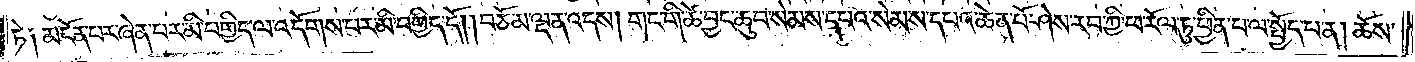ཏེ༑ མངོན་པར་ཞེན་པར་མི་བགྱིད་ལ་འདོགས་པར་མི་བགྱིད་དོ། །བཅོམ་ལྡན་འདས། གང་གི་ཚེ་བྱང་ཆུབ་སེམས་དཔའ་སེམས་དཔའ་ཆེན་པོ་ཤེས་རབ་ཀྱི་ཕ་རོལ་ཏུ་ཕྱིན་པ་ལ་སྤྱོད་པ་ན། ཆོས་
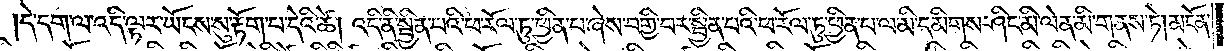དེ་དག་ལ་འདི་ལྟར་ཡོངས་སུ་རྟོག་པ་དེའི་ཚེ། འདི་ནི་སྦྱིན་པའི་ཕ་རོལ་ཏུ་ཕྱིན་པ་ཞེས་བགྱི་བར་སྦྱིན་པའི་ཕ་རོལ་ཏུ་ཕྱིན་པ་ལ་མི་དམིགས་ཤིང་མི་ལེན་མི་གནས་ཏེ། མངོན་
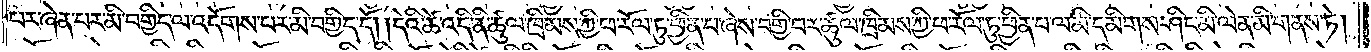པར་ཞེན་པར་མི་བགྱིད་ལ་འདོགས་པར་མི་བགྱིད་དོ། །དེའི་ཚེ་འདི་ནི་ཚུལ་ཁྲིམས་ཀྱི་ཕ་རོལ་ཏུ་ཕྱིན་པ་ཞེས་བགྱི་བར་ཚུལ་ཁྲིམས་ཀྱི་ཕ་རོལ་ཏུ་ཕྱིན་པ་ལ་མི་དམིགས་ཤིང་མི་ལེན་མི་གནས་ཏེ།
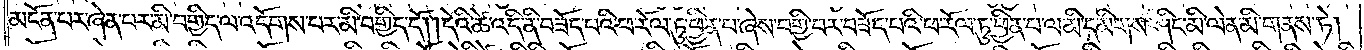མངོན་པར་ཞེན་པར་མི་བགྱིད་ལ་འདོགས་པར་མི་བགྱིད་དོ། །དེའི་ཚེ་འདི་ནི་བཟོད་པའི་ཕ་རོལ་ཏུ་ཕྱིན་པ་ཞེས་བགྱི་བར་བཟོད་པའི་ཕ་རོལ་ཏུ་ཕྱིན་པ་ལ་མི་དམིགས་ཤིང་མི་ལེན་མི་གནས་ཏེ།
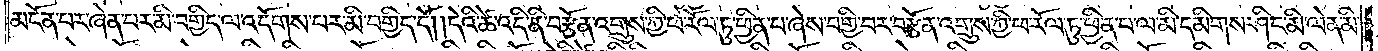མངོན་པར་ཞེན་པར་མི་བགྱིད་ལ་འདོགས་པར་མི་བགྱིད་དོ། །དེའི་ཚེ་འདི་ནི་བརྩོན་འགྲུས་ཀྱི་ཕ་རོལ་ཏུ་ཕྱིན་པ་ཞེས་བགྱི་བར་བརྩོན་འགྲུས་ཀྱི་ཕ་རོལ་ཏུ་ཕྱིན་པ་ལ་མི་དམིགས་ཤིང་མི་ལེན་མི་
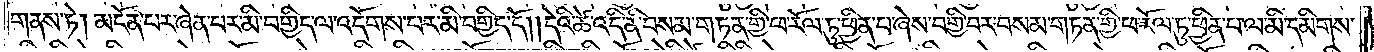གནས་ཏེ། མངོན་པར་ཞེན་པར་མི་བགྱིད་ལ་འདོགས་པར་མི་བགྱིད་དོ། །དེའི་ཚེ་འདི་ནི་བསམ་གཏན་གྱི་ཕ་རོལ་ཏུ་ཕྱིན་པ་ཞེས་བགྱི་བར་བསམ་གཏན་གྱི་ཕ་རོལ་ཏུ་ཕྱིན་པ་ལ་མི་དམིགས་
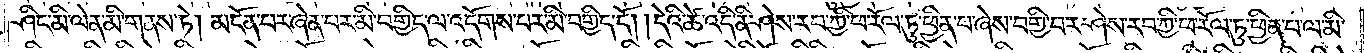ཤིང་མི་ལེན་མི་གནས་ཏེ། མངོན་པར་ཞེན་པར་མི་བགྱིད་ལ་འདོགས་པར་མི་བགྱིད་དོ། །དེའི་ཚེ་འདི་ནི་ཤེས་རབ་ཀྱི་ཕ་རོལ་ཏུ་ཕྱིན་པ་ཞེས་བགྱི་བར་ཤེས་རབ་ཀྱི་ཕ་རོལ་ཏུ་ཕྱིན་པ་ལ་མི་
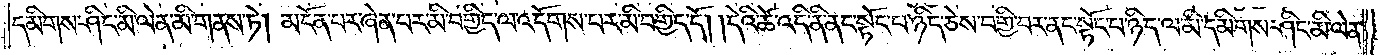དམིགས་ཤིང་མི་ལེན་མི་གནས་ཏེ། མངོན་པར་ཞེན་པར་མི་བགྱིད་ལ་འདོགས་པར་མི་བགྱིད་དོ། །དེའི་ཚེ་འདི་ནི་ནང་སྟོང་པ་ཉིད་ཅེས་བགྱི་བར་ནང་སྟོང་པ་ཉིད་ལ་མི་དམིགས་ཤིང་མི་ལེན་
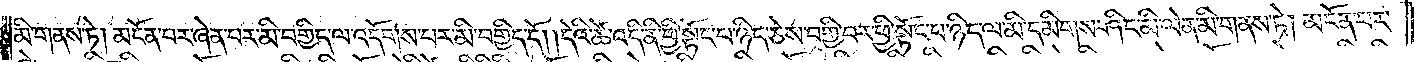མི་གནས་ཏེ། མངོན་པར་ཞེན་པར་མི་བགྱིད་ལ་འདོགས་པར་མི་བགྱིད་དོ། །དེའི་ཚེ་འདི་ནི་ཕྱི་སྟོང་པ་ཉིད་ཅེས་བགྱི་བར་ཕྱི་སྟོང་པ་ཉིད་ལ་མི་དམིགས་ཤིང་མི་ལེན་མི་གནས་ཏེ། མངོན་པར་
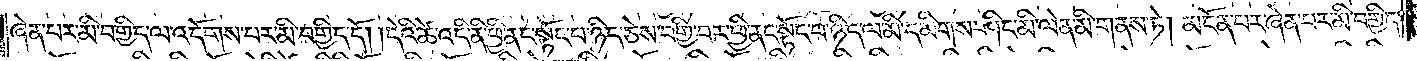ཞེན་པར་མི་བགྱིད་ལ་འདོགས་པར་མི་བགྱིད་དོ། །དེའི་ཚེ་འདི་ནི་ཕྱི་ནང་སྟོང་པ་ཉིད་ཅེས་བགྱི་བར་ཕྱི་ནང་སྟོང་པ་ཉིད་ལ་མི་དམིགས་ཤིང་མི་ལེན་མི་གནས་ཏེ། མངོན་པར་ཞེན་པར་མི་བགྱིད་
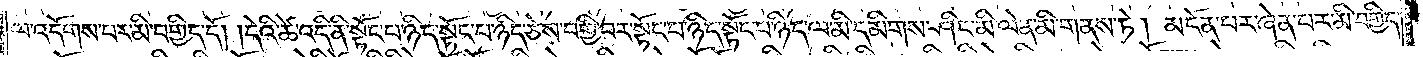ལ་འདོགས་པར་མི་བགྱིད་དེ། །དེའི་ཚེ་འདི་ནི་སྟོང་པ་ཉིད་སྟོང་པ་ཉིད་ཅེས་བགྱི་བར་སྟོང་པ་ཉིད་སྟོང་པ་ཉིད་ལ་མི་དམིགས་ཤིང་མི་ལེན་མི་གནས་ཏེ། མངོན་པར་ཞེན་པར་མི་བགྱིད་
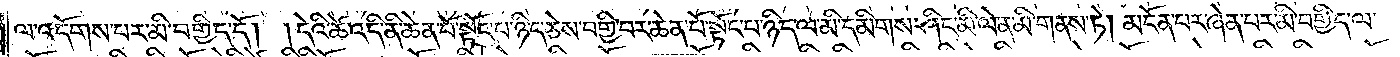ལ་འདོགས་པར་མི་བགྱིད་དོ། །དེའི་ཚེ་འདི་ནི་ཆེན་པོ་སྟོང་པ་ཉིད་ཅེས་བགྱི་བར་ཆེན་པོ་སྟོང་པ་ཉིད་ལ་མི་དམིགས་ཤིང་མི་ལེན་མི་གནས་ཏེ། མངོན་པར་ཞེན་པར་མི་བགྱིད་ལ་
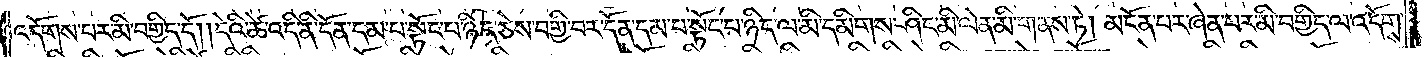འདོགས་པར་མི་བགྱིད་དོ། །དེའི་ཚེ་འདི་ནི་དོན་དམ་པ་སྟོང་པ་ཉིད་ཅེས་བགྱི་བར་དོན་དམ་པ་སྟོང་པ་ཉིད་ལ་མི་དམིགས་ཤིང་མི་ལེན་མི་གནས་ཏེ། མངོན་པར་ཞེན་པར་མི་བགྱིད་ལ་འདོགས་
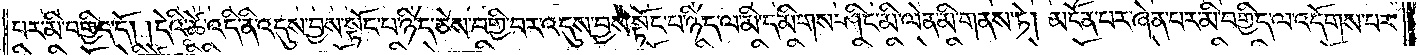པར་མི་བགྱིད་དོ། །དེའི་ཚེ་འདི་ནི་འདུས་བྱས་སྟོང་པ་ཉིད་ཅེས་བགྱི་བར་འདུས་བྱས་སྟོང་པ་ཉིད་ལ་མི་དམིགས་ཤིང་མི་ལེན་མི་གནས་ཏེ། མངོན་པར་ཞེན་པར་མི་བགྱིད་ལ་འདོགས་པར་
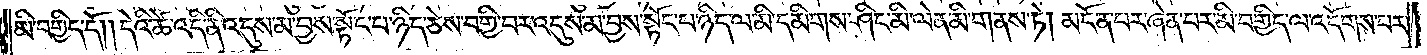མི་བགྱིད་དོ། །དེའི་ཚེ་འདི་ནི་འདུས་མ་བྱས་སྟོང་པ་ཉིད་ཅེས་བགྱི་བར་འདུས་མ་བྱས་སྟོང་པ་ཉིད་ལ་མི་དམིགས་ཤིང་མི་ལེན་མི་གནས་ཏེ། མངོན་པར་ཞེན་པར་མི་བགྱིད་ལ་འདོགས་པར་
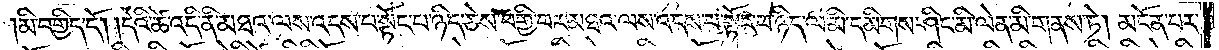མི་བགྱིད་དོ། །དེའི་ཚེ་འདི་ནི་མཐའ་ལས་འདས་པ་སྟོང་པ་ཉིད་ཅེས་བགྱི་བར་མཐའ་ལས་འདས་པ་སྟོང་པ་ཉིད་ལ་མི་དམིགས་ཤིང་མི་ལེན་མི་གནས་ཏེ། མངོན་པར་
